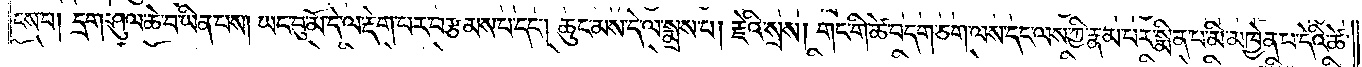ངས་པ། དྲག་ཤུལ་ཆེ་བ་ཡིན་པས། ཡང་བུ་མོ་དེ་ལ་རྡེག་པར་བརྩམས་པ་དང༌། ཆུང་མས་དེ་ལ་སྨྲས་པ། རྗེའི་སྲས། གང་གི་ཚེ་བདག་ཅག་ལས་དང་ལས་ཀྱི་རྣམ་པར་སྨིན་པ་མི་མཁྱེན་པ་དེའི་ཚེ་
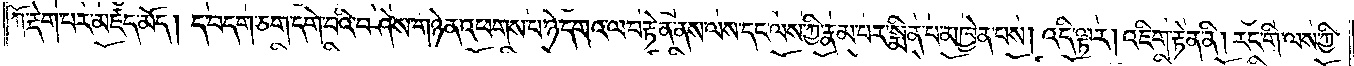ཀོ་རྡེག་པར་མཛད་མོད། ད་བདག་ཅག་དགེ་བའི་བཤེས་གཉེན་འཕགས་པ་ཉེ་དགའ་ལ་བརྟེན་ནས་ལས་དང་ལས་ཀྱི་རྣམ་པར་སྨིན་པ་མཁྱེན་པས། འདི་ལྟར། འཇིག་རྟེན་ནི། རང་གི་ལས་ཀྱི་
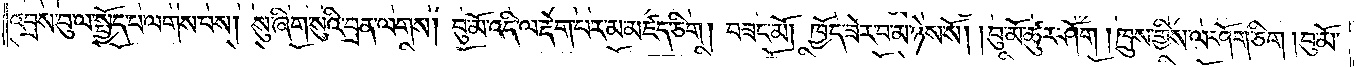འབྲས་བུ་ལ་སྤྱོད་པ་ལགས་པས། སུ་ཞིག་སུའི་བྲན་ལགས། བུ་མོ་འདི་ལ་རྡེག་པར་མ་མཛད་ཅིག། བཟང་མོ། ཁྱོད་ཟེར་བ་མ་ཉེས་སོ། །བུ་མོ་ཚུར་ཤོག །ཁྲུས་གྱིས་ལ་ཤོག་ཅིག །བུ་མོ་
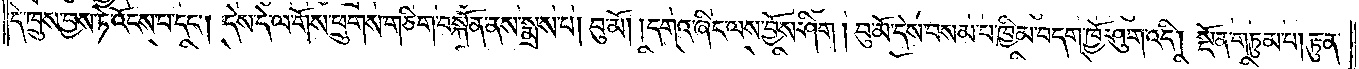དེ་ཁྲུས་བྱས་ཏེ་འོངས་པ་དང༌། དེས་དེ་ལ་གོས་ཕྲུགས་གཅིག་བསྐོན་ནས་སྨྲས་པ། བུ་མོ། །དགའ་ཞིང་ལས་བྱོས་ཤིག །བུ་མོ་དེས་བསམ་པ་ཁྱིམ་བདག་ཁྱོ་ཤུག་འདི། སྔོན་གཏུམ་པ། རྟུན་
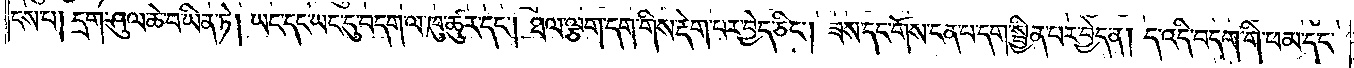ངས་པ། དྲག་ཤུལ་ཆེ་བ་ཡིན་ཏེ། ཡང་དང་ཡང་དུ་བདག་ལ་ཁུ་ཚུར་དང༌། ཐལ་ལྕག་དག་གིས་རྡེག་པར་བྱེད་ཅིང༌། ཟས་དང་གོས་ངན་པ་དག་སྦྱིན་པར་བྱེད་ན། ད་འདི་བདག་གི་ཕམ་དང་
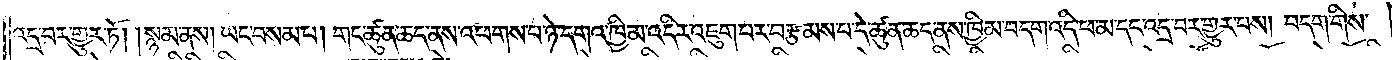འདྲ་བར་གྱུར་ཏོ། །སྙམ་ནས། ཡང་བསམ་པ། གང་ཚུན་ཆད་ནས་འཕགས་པ་ཉེ་དགའ་ཁྱིམ་འདིར་འཇུག་པར་བརྩམས་པ་དེ་ཚུན་ཆད་ནས་ཁྱིམ་བདག་འདི་ཕ་མ་དང་འདྲ་བར་གྱུར་པས། བདག་གིས་
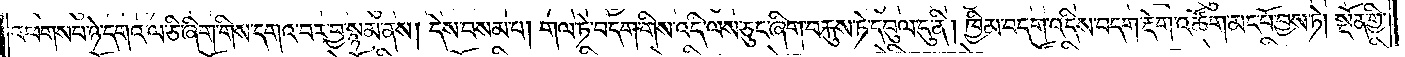འཕགས་པ་ཉེ་དགའ་ལ་ཅི་ཞིག་གིས་དགའ་བར་བྱ་སྙམ་ནས། དེས་བསམ་པ། གལ་ཏེ་བདག་གིས་འདི་ལས་ཅུང་ཞིག་བརྐུས་ཏེ་དབུལ་དུ་ནི། ཁྱིམ་བདག་འདིས་བདག་རྡེག་འཚོག་མང་པོ་བྱས་ཏེ། སྔོན་གྱི་
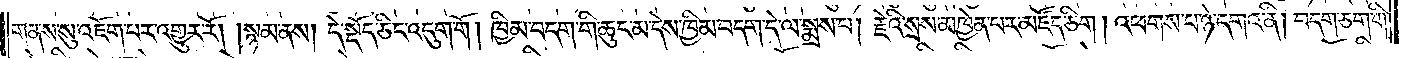གནས་སུ་འཇོག་པར་འགྱུར་རོ། །སྙམ་ནས། དེ་སྡོད་ཅིང་འདུག་གོ། ཁྱིམ་བདག་གི་ཆུང་མ་དེས་ཁྱིམ་བདག་དེ་ལ་སྨྲས་པ། རྗེའི་སྲས་མཁྱེན་པར་མཛོད་ཅིག །འཕགས་པ་ཉེ་དགའ་ནི། བདག་ཅག་གི་
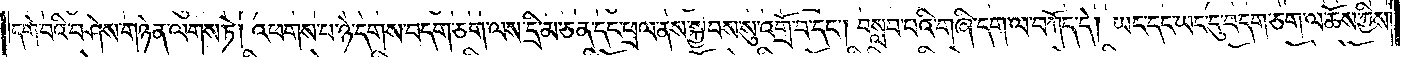དགེ་བའི་བཤེས་གཉེན་ལགས་ཏེ། འཕགས་པ་ཉེ་དགས་བདག་ཅག་ལས་དྲི་མ་ཅན་དང་ཕྲལ་ནས་སྐྱབས་སུ་འགྲོ་བ་དང༌། བསླབ་པའི་གཞི་དག་ལ་བཀོད་དེ། ཡང་དང་ཡང་དུ་བདག་ཅག་ལ་ཆོས་ཀྱིས་
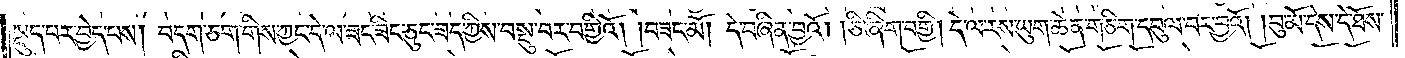སྡུད་པར་བྱེད་པས། བདག་ཅག་གིས་ཀྱང་དེ་ལ་ཟང་ཟིང་ཅུང་ཟད་ཀྱིས་བསྡུ་བར་བགྱིའོ། །བཟང་མོ། དེ་བཞིན་བྱའོ། །ཅི་ཞིག་བགྱི། དེ་ལ་རས་ཡུག་ཆེན་གཅིག་དབུལ་བར་བྱའོ། །བུ་མོ་དེས་དེ་ཐོས་
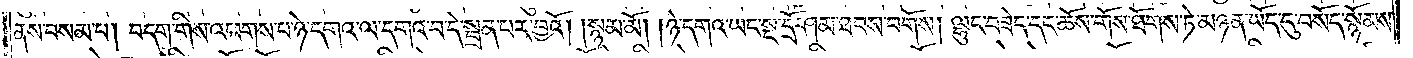ནས་བསམ་པ། བདག་གིས་འཕགས་པ་ཉེ་དགའ་ལ་དགའ་བ་དེ་སྦྲན་པར་བྱའོ། །སྙམ་མོ། །ཉེ་དགའ་ཡང་སྔ་དྲོ་ཤམ་ཐབས་བགོས། ལྷུང་བཟེད་དང་ཆོས་གོས་ཐོགས་ཏེ་མཉན་ཡོད་དུ་བསོད་སྙོམས་
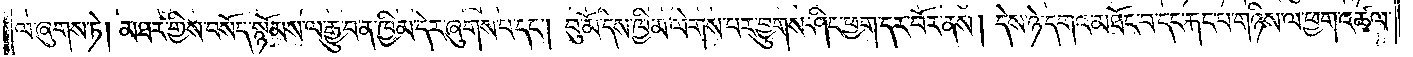ལ་ཞུགས་ཏེ། མཐར་གྱིས་བསོད་སྙོམས་ལ་རྒྱུ་བ་ན་ཁྱིམ་དེར་ཞུགས་པ་དང༌། བུ་མོ་དེས་ཁྱིམ་ལེགས་པར་བྱུགས་ཤིང་ཕྱག་དར་བོར་ནས། དེས་ཉེ་དགའ་མཐོང་བ་དང་རྐང་པ་གཉིས་ལ་ཕྱག་འཚལ་
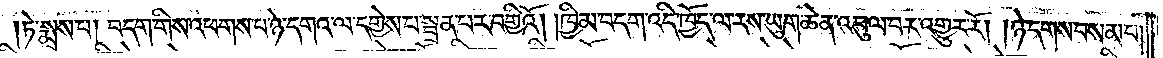ཏེ་སྨྲས་པ། བདག་གིས་འཕགས་པ་ཉེ་དགའ་ལ་དགྱེས་པ་སྦྲན་པར་བགྱིའོ། །ཁྱིམ་བདག་འདི་ཁྱོད་ལ་རས་ཡུག་ཆེན་འབུལ་བར་འགྱུར་རོ། །ཉེ་དགས་བསམ་པ།
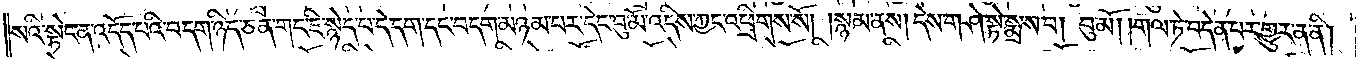སའི་སྟེང་ན་འདོད་པའི་བདག་ཉིད་ཅན་གང་ཇི་སྙེད་པ་དེ་དག་དང་བདག་མཉམ་པར་དེང་བུ་མོ་འདིས་ཀྱང་འཕྲིགས་སོ། །སྙམ་ནས། དེས་གཤེ་སྟེ་སྨྲས་པ། བུ་མོ། །གལ་ཏེ་བདེན་པར་གྱུར་ན་ནི།
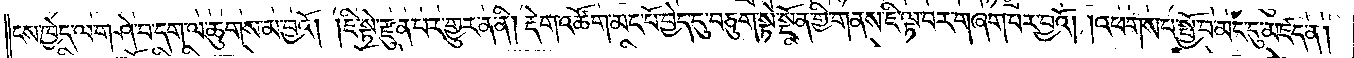ངས་ཁྱེད་ལ་གཤེ་བ་དག་ལ་ཆུགས་མ་བྱའོ། །ཇི་སྟེ་རྫུན་པར་གྱུར་ན་ནི། རྡེག་འཚོག་མང་པོ་བྱེད་དུ་བཅུག་སྟེ་སྔོན་གྱི་གནས་ཇི་ལྟ་བར་གཞག་པར་བྱའོ། །འཕགས་པ་སྤྱོ་བ་མང་དུ་མཛད་ན།
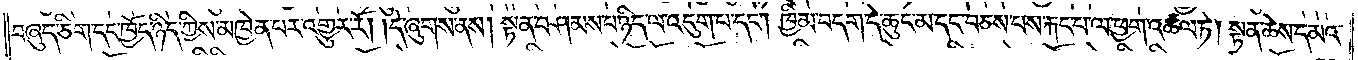བཞུད་ཅིག་དང་ཁྱོད་ཉིད་ཀྱིས་མཁྱེན་པར་འགྱུར་རོ། །དེ་ཞུགས་ནས། སྟན་བཤམས་པ་ཉིད་ལ་འདུག་པ་དང༌། ཁྱིམ་བདག་དེ་ཆུང་མ་དང་བཅས་པས་རྐང་པ་ལ་ཕྱག་འཚལ་ཏེ། སྟན་ཆེས་དམའ་
